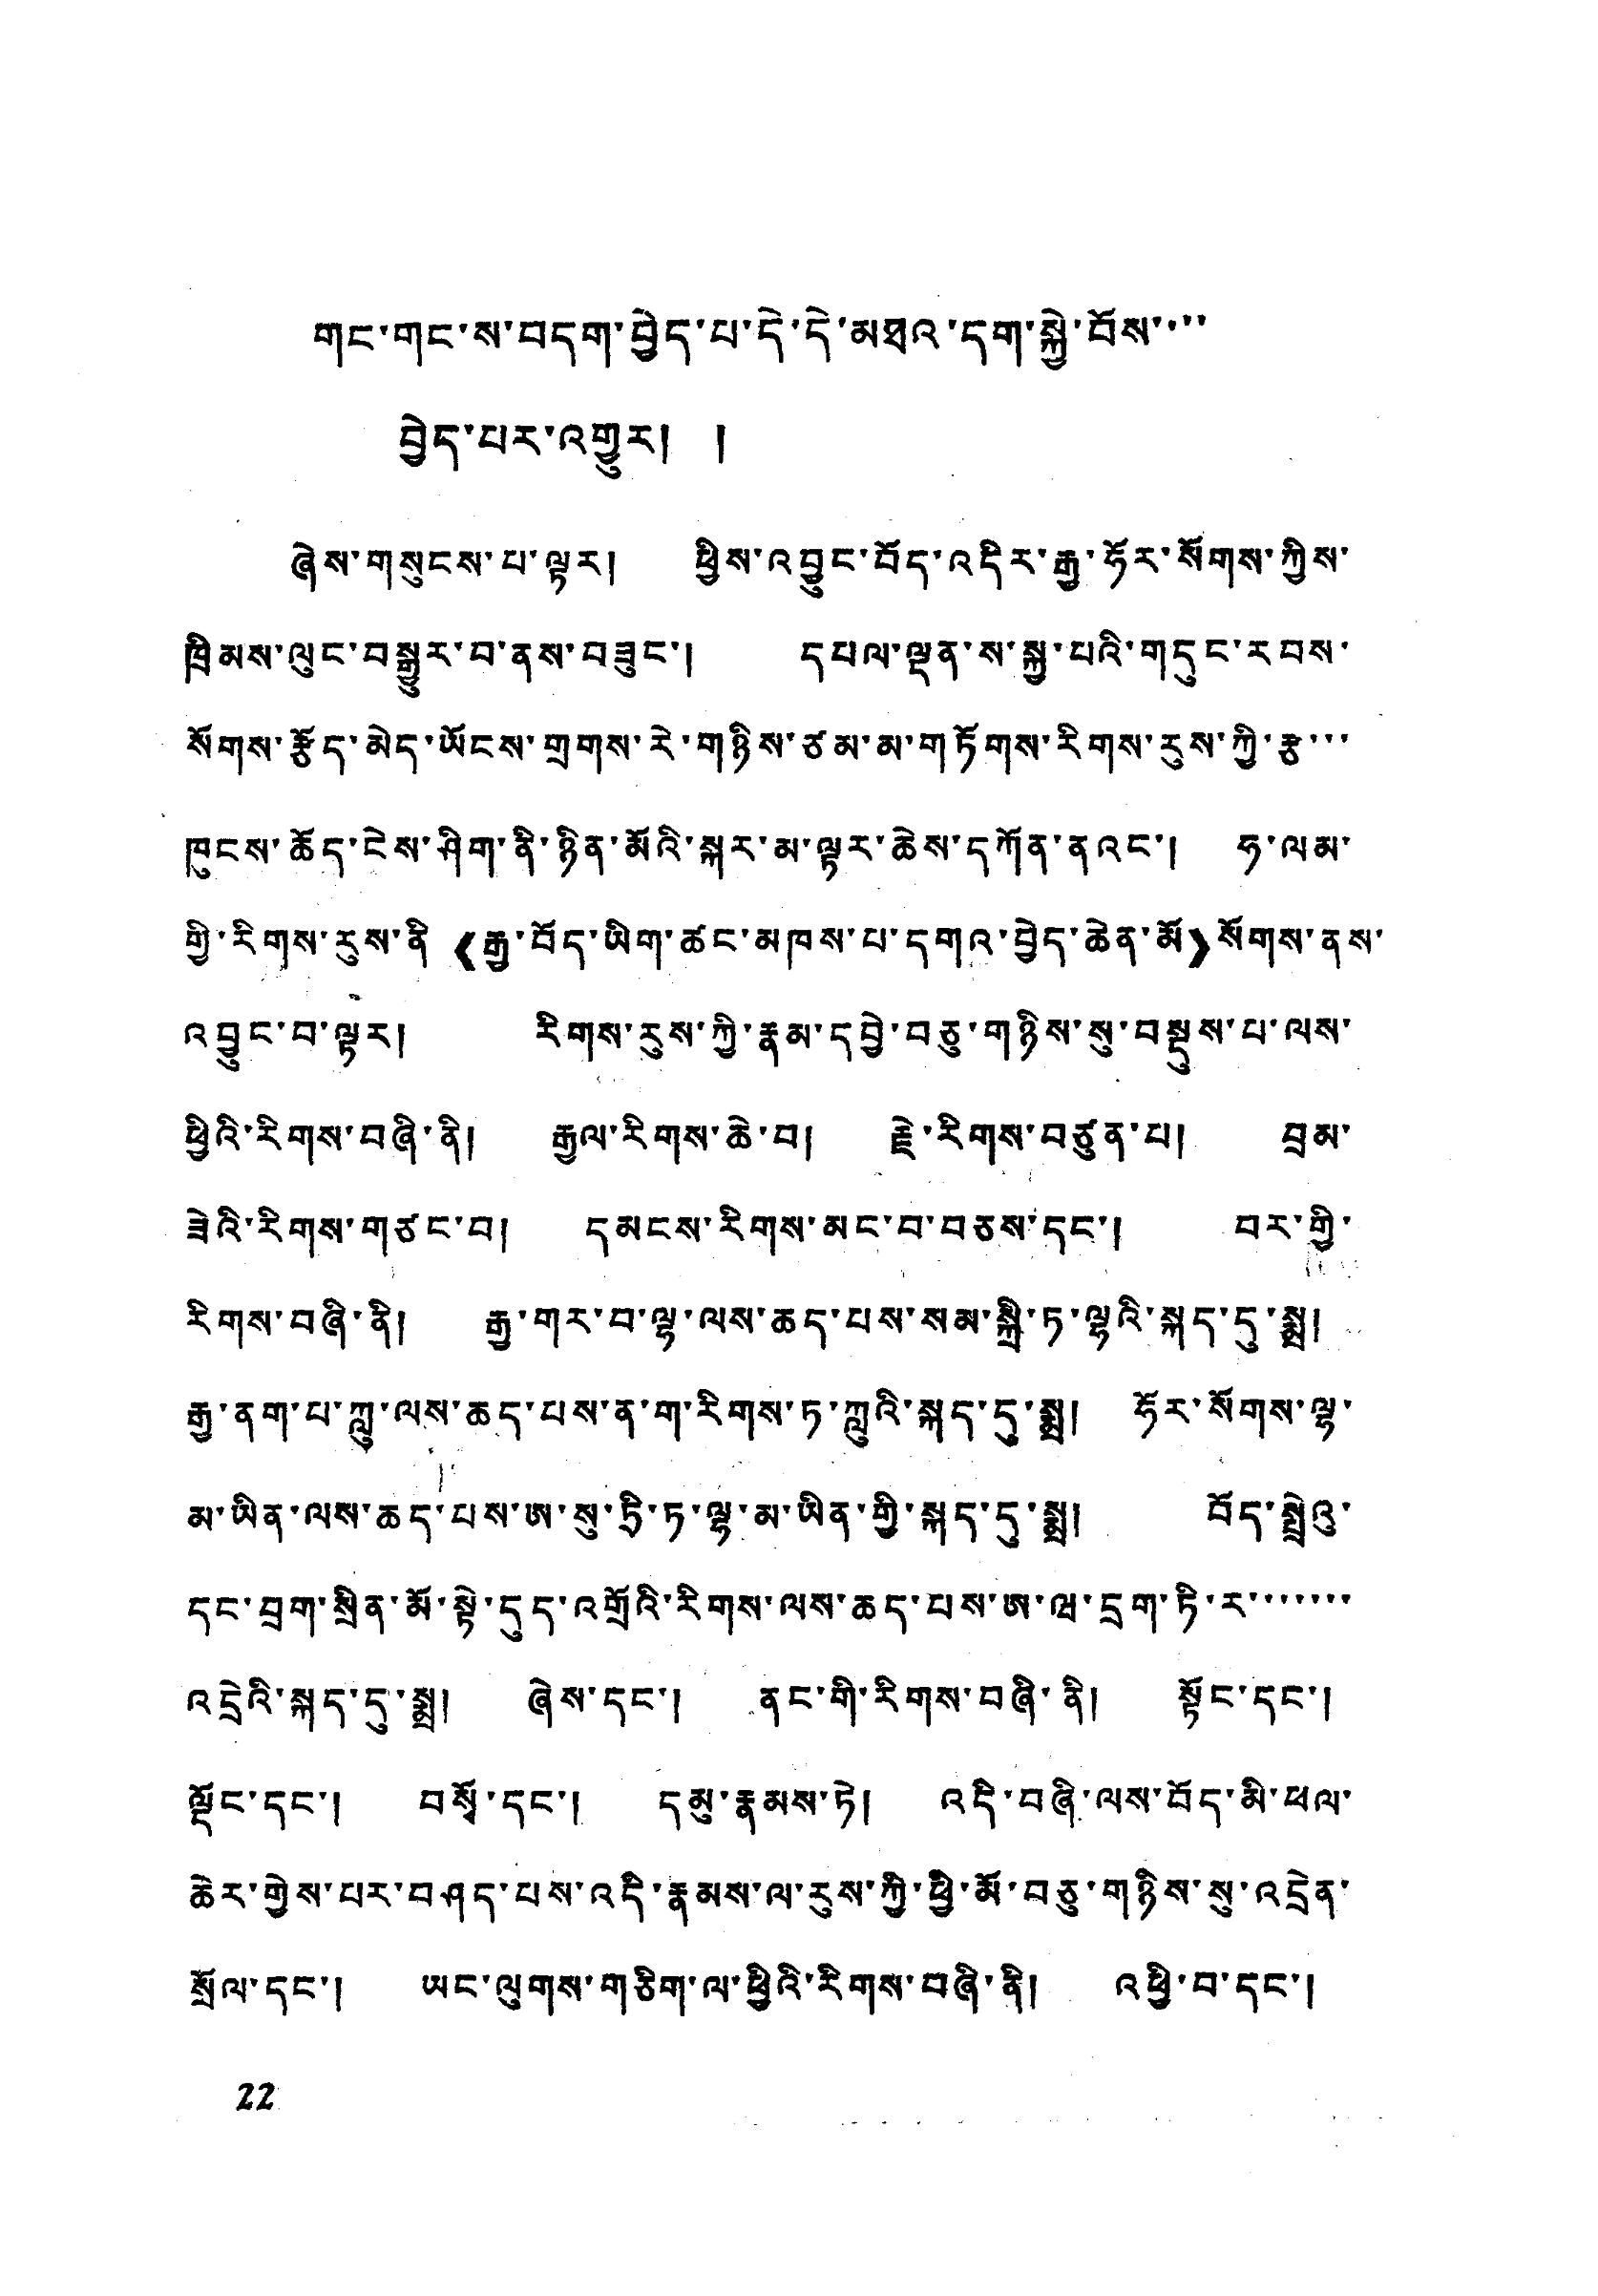གང་གང་ས་བདག་བྱེད་པ་དེ་དེ་མཐའ་དག་སྐྱེ་བོས་་་་
བྱེད་པར་འགྱུར། །
ཞེས་གསུངས་པ་ལྟར། ཕྱིས་འབྱུང་བོད་འདིར་རྒྱ་ཧོར་སོགས་ཀྱིས་
ཁྲིམས་ལུང་བསྒྱུར་བ་ནས་བཟུང་། དཔལ་ལྡན་ས་སྐྱ་པའི་གདུང་རབས་
སོགས་རྩོད་མེད་ཡོངས་གྲགས་རེ་གཉིས་ཙམ་མ་གཏོགས་རིགས་རུས་ཀྱི་རྩ་་་
ཁུངས་ཆོད་ངེས་ཤིག་ནི་ཉིན་མོའི་སྐར་མ་ལྟར་ཆེས་དཀོན་ནའང་། ཧ་ལམ་
གྱི་རིགས་རུས་ནི་《རྒྱ་བོད་ཡིག་ཚང་མཁས་པ་དགའ་བྱེད་ཆེན་མོ》་སོགས་ནས་
འབྱུང་བ་ལྟར། རིགས་རུས་ཀྱི་རྣམ་དབྱེ་བཅུ་གཉིས་སུ་བསྡུས་པ་ལས་
ཕྱིའི་རིགས་བཞི་ནི། རྒྱལ་རིགས་ཆེ་བ། རྗེ་རིགས་བཙུན་པ། བྲམ་
ཟེའི་རིགས་གཙང་བ། དམངས་རིགས་མང་བ་བཅས་དང། བར་གྱི་
རིགས་བཞི་ནི། རྒྱ་གར་བ་ལྷ་ལས་ཆད་པས་སམ་སྐྲི་ཏ་ལྷའི་སྐད་དུ་སྨྲ།
རྒྱ་ནག་པ་ཀླུ་ལས་ཆད་པས་ན་ག་རིགས་ཏ་ཀླུའི་སྐད་དུ་སྨྲ། ཧོར་སོགས་ལྷ་
མ་ཡིན་ལས་ཆད་པས་ཨ་སུ་ཏྲི་ཏ་ལྷ་མ་ཡིན་གྱི་སྐད་དུ་སྨྲ། བོད་སྤྲེའུ་
དང་བྲག་སྲིན་མོ་སྟེ་དུད་འགྲོའི་རིགས་ལས་ཆད་པས་ཨ་ཝ་དྲག་ཏི་ར་་་་་་་
འདྲེའི་སྐད་དུ་སྨྲ། ཞེས་དང་། ནང་གི་རིགས་བཞི་ནི། སྟོང་དང་།
ལྡོང་དང་། བསྭོ་དང་། དམུ་རྣམས་ཏེ། འདི་བཞི་ལས་བོད་མི་ཕལ་
ཆེར་གྱེས་པར་བཤད་པས་འདི་རྣམས་ལ་རུས་ཀྱི་ཕྱི་མོ་བཅུ་གཉིས་སུ་འདྲེན་
སྲོལ་དང་། ཡང་ལུགས་གཅིག་ལ་ཕྱིའི་རིགས་བཞི་ནི། འཕྱི་བ་དང་།
22
